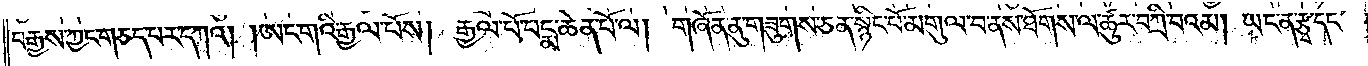བརྒྱས་ཀྱང་གཅད་པར་དཀའ། །ཨང་གའི་རྒྱལ་པོས། རྒྱལ་པོ་པདྨ་ཆེན་པོ་ལ། གཞོན་ནུ་གཟུགས་ཅན་སྙིང་པོ་མགུལ་བ་ནས་ཐོགས་ལ་ཚུར་བཀྲི་བའམ། ཡང་ན་རྩྭ་དང་
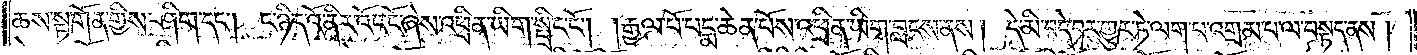ཆས་སྟ་གོན་གྱིས་ཤིག་དང༌། ང་ཉིད་འོ་ནིར་འོང་ངོ་ཞེས་འཕྲིན་ཡིག་སྤྲིང་ངོ༌། །རྒྱལ་པོ་པདྨ་ཆེན་པོས་འཕྲིན་ཡིག་བླངས་ནས། དེ་མི་བདེ་བར་གྱུར་ཏེ་ལག་པ་འགྲམ་པ་ལ་བསྟད་ནས།
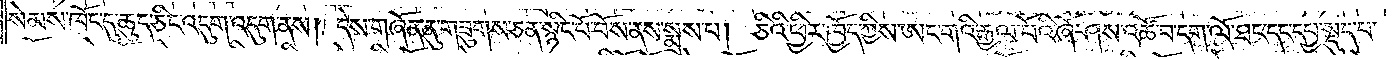སེམས་ཁོང་དུ་ཆུད་ཅིང་འདུག་འདུག་ནས། དེས་གཞོན་ནུ་གཟུགས་ཅན་སྙིང་པོ་བོས་ནས་སྨྲས་པ། ཅིའི་ཕྱིར་ཁྱོད་ཀྱིས་ཨང་གའི་རྒྱལ་པོའི་ཞོ་ཤས་འཚོ་བ་དག་ལོ་ཐང་དང་དཔྱ་སྡུད་པ་
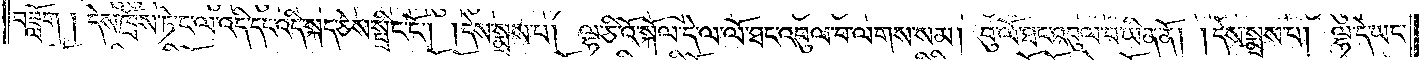བཟློག། དེས་ཁྲོས་ཏེ་ང་ལ་འདི་དང་འདི་སྐད་ཅེས་སྤྲིང་ངོ༌། །དེས་སྨྲས་པ། ལྷ་ཅི་འོ་སྐོལ་དེ་ལ་ལོ་ཐང་འབུལ་བ་ལགས་སམ། བུ་ལོ་ཐང་འབུལ་བ་ཡིན་ནོ། །དེས་སྨྲས་པ། ལྷ་དེ་ཡང་
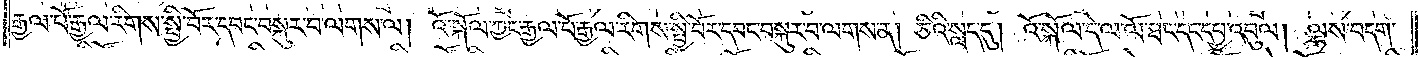རྒྱལ་པོ་རྒྱལ་རིགས་སྤྱི་བོར་དབང་བསྐུར་བ་ལགས་ལ། འོ་སྐོལ་ཀྱང་རྒྱལ་པོ་རྒྱལ་རིགས་སྤྱི་བོར་དབང་བསྐུར་བ་ལགས་ན། ཅིའི་སླད་དུ། འོ་སྐོལ་དེ་ལ་ལོ་ཐང་དང་དཔྱ་འབུལ། ལྷས་བདག་
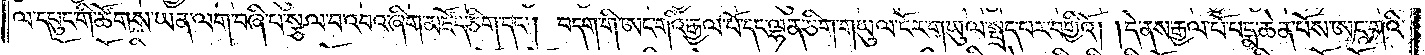ལ་དཔུང་གི་ཚོགས་ཡན་ལག་བཞི་པ་སྩལ་བ་འབའ་ཞིག་མཛོད་ཅིག་དང༌། བདག་གི་ཨང་གའི་རྒྱལ་པོ་དང་ལྷན་ཅིག་གཡུལ་ངོར་གཡུལ་སྤྲད་པར་བགྱིའོ། །དེ་ནས་རྒྱལ་པོ་པདྨ་ཆེན་པོས་ཨང་གའི་
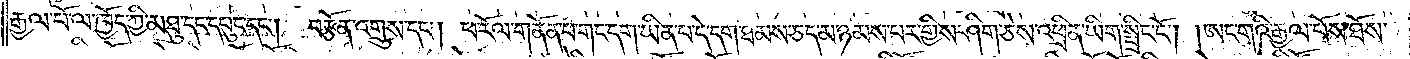རྒྱལ་པོ་ལ་ཁྱོད་ཀྱི་མཐུ་དང་དཔུང་དང༌། བརྩོན་འགྲུས་དང༌། ཕ་རོལ་གནོན་པ་གང་དག་ཡིན་པ་དེ་དག་ཐམས་ཅད་མ་ཉམས་པར་གྱིས་ཤིག་ཅེས་འཕྲིན་ཡིག་སྤྲིང་ངོ༌། །ཨང་གའི་རྒྱལ་པོས་ཐོས་
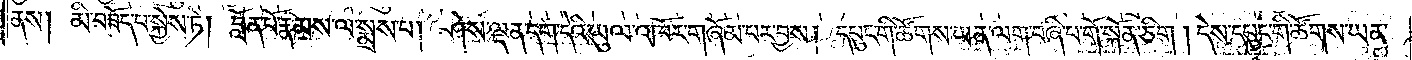ནས། མི་བཟོད་པ་སྐྱེས་ཏེ། བློན་པོ་རྣམས་ལ་སྨྲས་པ། ཤེས་ལྡན་དག་དེའི་ཡུལ་འཁོར་གཞོམ་པར་བྱས། དཔུང་གི་ཚོགས་ཡན་ལག་བཞི་པ་གོ་སྐོན་ཅིག། དེས་དཔུང་གི་ཚོགས་ཡན་
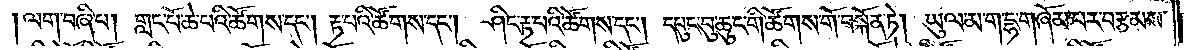ལག་བཞི་པ། གླང་པོ་ཆེ་པའི་ཚོགས་དང༌། རྟ་པའི་ཚོགས་དང༌། ཤིང་རྟ་པའི་ཚོགས་དང༌། དཔུང་བུ་ཆུང་གི་ཚོགས་གོ་བསྐོན་ཏེ། ཡུལ་མ་ག་དྷ་གཞོམ་པར་བརྩམས་
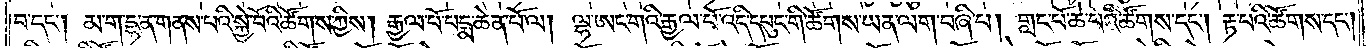བ་དང༌། མ་ག་དྷ་ན་གནས་པའི་སྐྱེ་བོའི་ཚོགས་ཀྱིས། རྒྱལ་པོ་པདྨ་ཆེན་པོ་ལ། ལྷ་ཨང་གའི་རྒྱལ་པོ་འདི་དཔུང་གི་ཚོགས་ཡན་ལག་བཞི་པ། གླང་པོ་ཆེ་པའི་ཚོགས་དང༌། རྟ་པའི་ཚོགས་དང༌།
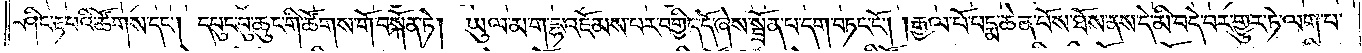ཤིང་རྟ་པའི་ཚོགས་དང༌། དཔུང་བུ་ཆུང་གི་ཚོགས་གོ་བསྐོན་ཏེ། ཡུལ་མ་ག་དྷ་འཇོམས་པར་བགྱིད་དོ་ཞེས་སྦྲོན་པ་དག་བཏང་ངོ༌། །རྒྱལ་པོ་པདྨ་ཆེན་པོས་ཐོས་ནས་དེ་མི་བདེ་བར་གྱུར་ཏེ་ལག་པ་
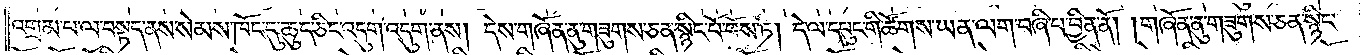འགྲམ་པ་ལ་བསྟད་ནས་སེམས་ཁོང་དུ་ཆུད་ཅིང་འདུག་འདུག་ནས། དེས་གཞོན་ནུ་གཟུགས་ཅན་སྙིང་པོ་བོས་ཏེ། དེ་ལ་དཔུང་གི་ཚོགས་ཡན་ལག་བཞི་པ་བྱིན་ནོ། །གཞོན་ནུ་གཟུགས་ཅན་སྙིང་
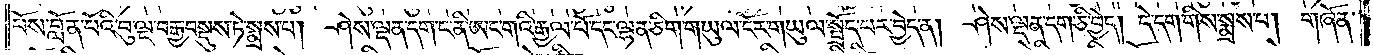པོས་བློན་པོའི་བུ་ལྔ་བརྒྱ་བསྡུས་ཏེ་སྨྲས་པ། ཤེས་ལྡན་དག་ང་ནི་ཨང་གའི་རྒྱལ་པོ་དང་ལྷན་ཅིག་གཡུལ་ངོར་གཡུལ་སྤྲོད་པར་བྱེད་ན། ཤེས་ལྡན་དག་ཅི་བྱེད། དེ་དག་གིས་སྨྲས་པ། གཞོན་
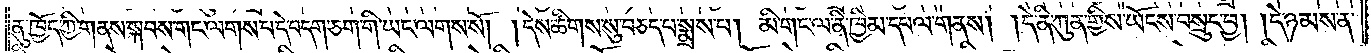ནུ་ཁྱོད་ཀྱི་གནས་སྐབས་གང་ལགས་པ་དེ་བདག་ཅག་གི་ཡང་ལགས་སོ། །དེས་ཚིགས་སུ་བཅད་པ་སྨྲས་པ། མི་གང་ལ་ནི་ཁྱིམ་དཔལ་གནས། །དེ་ནི་ཀུན་གྱིས་ཡོངས་བསྲུང་བྱ། །དེ་ཉམས་ན་
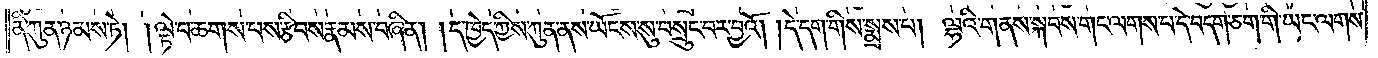ནི་ཀུན་ཉམས་ཏེ། །ལྟེ་བ་ཆགས་པས་རྩིབས་རྣམས་བཞིན། །ད་ཁྱེད་ཀྱིས་ཀུན་ནས་ཡོངས་སུ་བསྲུང་བར་བྱའོ། །དེ་དག་གིས་སྨྲས་པ། ལྷའི་གནས་སྐབས་གང་ལགས་པ་དེ་བདག་ཅག་གི་ཡང་ལགས་
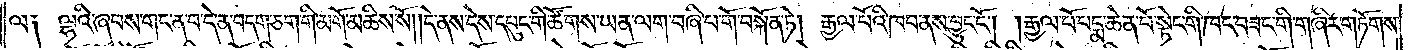ལ༑ ལྷའི་ཞབས་གང་ན་བ་དེ་ན་བདག་ཅག་གི་མགོ་མཆིས་སོ། །དེ་ནས་དེས་དཔུང་གི་ཚོགས་ཡན་ལག་བཞི་པ་གོ་བསྐོན་ཏེ། རྒྱལ་པོའི་ཁབ་ནས་བྱུང་ངོ༌། །རྒྱལ་པོ་པདྨ་ཆེན་པོ་སྟེང་གི་ཁང་བཟང་གི་གཞིར་གཏོགས་
